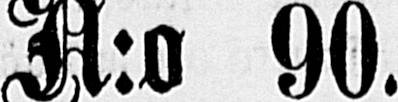N:o 90.
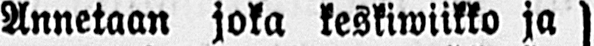Annetaan joka keskiwiikko ja
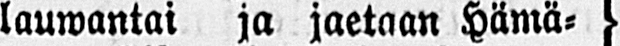lauwantai ja jaetaan Hämä-
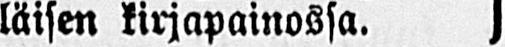läisen kirjapainossa.)
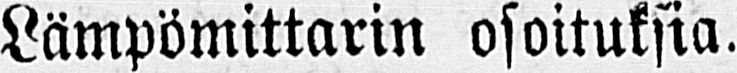Lämpömittarin osoituksia.
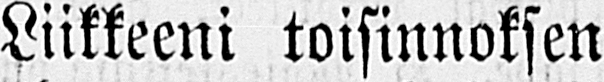Liikkeeni toisinnoksen
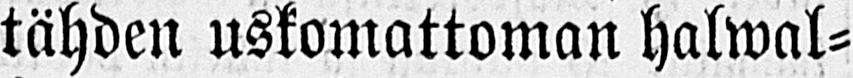tähden uskomattoman halwal-
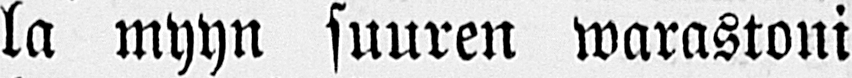la myyn suuren warastoni
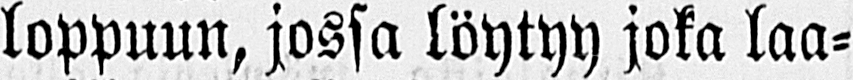loppuun, jossa löytyy joka laa-
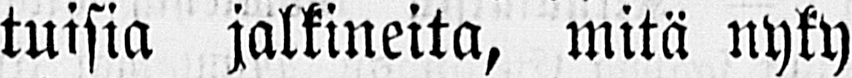tuisia jalkineita, mitä nyky
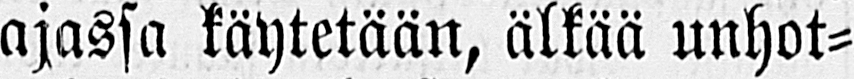ajassa käytetään, älkää unhot-
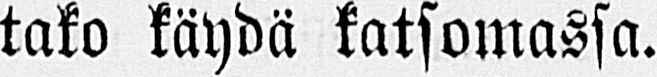tako käydä katsomassa.
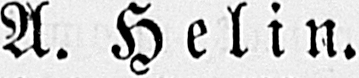A. Helin.
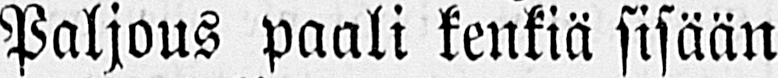Paljous paali kenkiä sisään
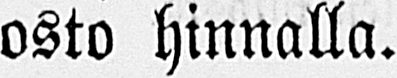osto hinnalla.
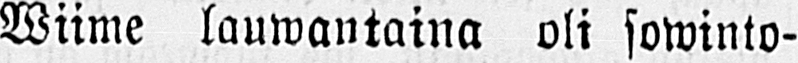Wiime lauwantaina oli sowinto-
